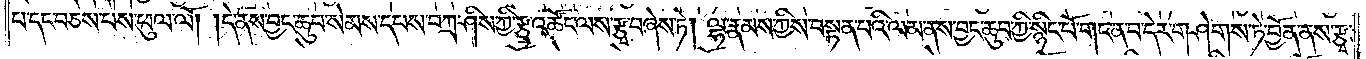པ་དང་བཅས་པས་ཕུལ་ལོ། །དེ་ནས་བྱང་ཆུབ་སེམས་དཔས་བཀྲ་ཤིས་ཀྱི་རྩྭ་འཚོང་ལས་རྩྭ་བཞེས་ཏེ། ལྷ་རྣམས་ཀྱིས་བསྟན་པའི་ལམ་ནས་བྱང་ཆུབ་ཀྱི་སྙིང་པོ་གང་ན་བ་དེར་གཤེགས་ཏེ་བྱོན་ནས་རྩྭ་
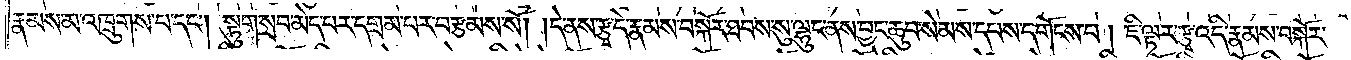རྣམས་མ་འཁྲུགས་པ་དང༌། སྟུག་སྲབ་མེད་པར་དགྲམ་པར་བརྩམས་སོ། །དེ་ནས་རྩྭ་དེ་རྣམས་བསྐོར་ཐབས་སུ་ལྷུང་ནས་བྱང་ཆུབ་སེམས་དཔས་དགོངས་པ། ཇི་ལྟར་རྩྭ་འདི་རྣམས་བསྐོར་
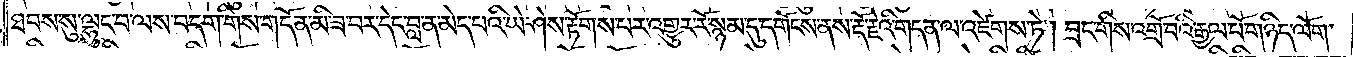ཐབས་སུ་ལྷུང་བ་ལས་བདག་གིས་གདོན་མི་ཟ་བར་དེང་བླ་ན་མེད་པའི་ཡེ་ཤེས་རྟོགས་པར་འགྱུར་རོ་སྙམ་དུ་དགོངས་ནས་རྡོ་རྗེའི་གདན་ལ་འཛེགས་ཏེ། བྲང་གིས་འགྲོ་བའི་རྒྱལ་པོ་གཉིད་ལོག་
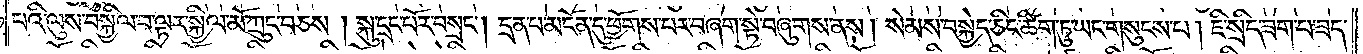པའི་ལུས་བསྐྱིལ་བ་ལྟར་སྐྱིལ་མོ་ཀྲུང་བཅས། སྐུ་དྲང་པོར་བསྲང༌། དྲན་པ་མངོན་དུ་ཕྱོགས་པར་བཞག་སྟེ་བཞུགས་ནས། སེམས་བསྐྱེད་ཅིང་ཚིག་ཏུ་ཡང་གསུངས་པ། ཇི་སྲིད་ཟག་པ་ཟད་
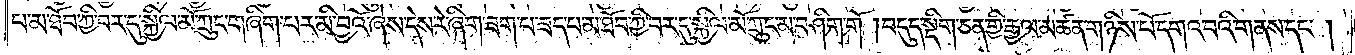པ་མ་ཐོབ་ཀྱི་བར་དུ་སྐྱིལ་མོ་ཀྲུང་གཞིག་པར་མི་བྱའོ་ཞེས་དེས་རེ་ཞིག་ཟག་པ་ཟད་པ་མ་ཐོབ་ཀྱི་བར་དུ་སྐྱིལ་མོ་ཀྲུང་མ་བཤིག་གོ །བདུད་སྡིག་ཅན་གྱི་རྒྱལ་མཚན་གཉིས་པོ་དགའ་བའི་གནས་དང༌།
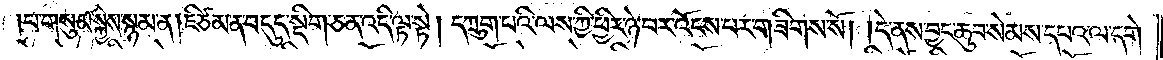།པ་གསུམ་སྐྱེས་སྙམ་ན། ཇི་ཙམ་ན་བདུད་སྡིག་ཅན་འདི་ལྟ་སྟེ། དཀྲུག་པའི་ལས་ཀྱི་ཕྱིར་ཉེ་བར་འོངས་པར་གཟིགས་སོ། །དེ་ནས་བྱང་ཆུབ་སེམས་དཔའ་ལ་དགེ་
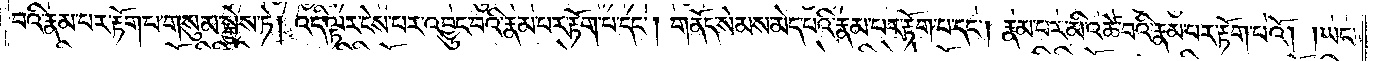བའི་རྣམ་པར་རྟོག་པ་གསུམ་སྐྱེས་ཏེ། འདི་ལྟར་ངེས་པར་འབྱུང་བའི་རྣམ་པར་རྟོག་པ་དང༌། གནོད་སེམས་མེད་པའི་རྣམ་པར་རྟོག་པ་དང༌། རྣམ་པར་མི་འཚེ་བའི་རྣམ་པར་རྟོག་པའོ། །ཡང་
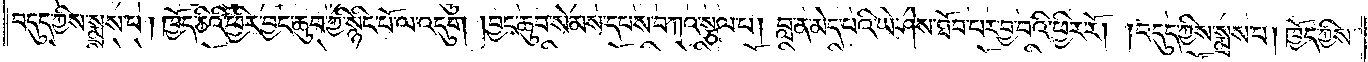བདུད་ཀྱིས་སྨྲས་པ། ཁྱོད་ཅིའི་ཕྱིར་བྱང་ཆུབ་ཀྱི་སྙིང་པོ་ལ་འདུག །བྱང་ཆུབ་སེམས་དཔས་བཀའ་སྩལ་པ། བླ་ན་མེད་པའི་ཡེ་ཤེས་ཐོབ་པར་བྱ་བའི་ཕྱིར་རོ། །བདུད་ཀྱིས་སྨྲས་པ། ཁྱོད་ཀྱིས་
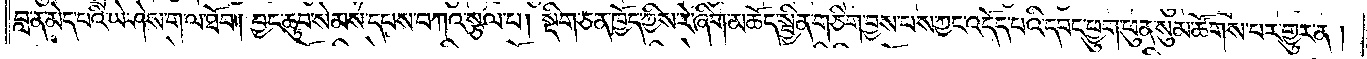བླ་ན་མེད་པའི་ཡེ་ཤེས་ག་ལ་ཐོབ། བྱང་ཆུབ་སེམས་དཔས་བཀའ་སྩལ་པ། སྡིག་ཅན་ཁྱོད་ཀྱིས་རེ་ཞིག་མཆོད་སྦྱིན་གཅིག་བྱས་པས་ཀྱང་འདོད་པའི་དབང་ཕྱུག་ཕུན་སུམ་ཚོགས་པར་གྱུར་ན་།
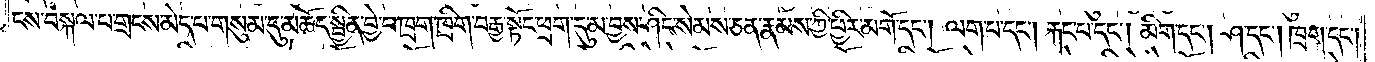ངས་བསྐལ་པ་གྲངས་མེད་པ་གསུམ་དུ་མཆོད་སྦྱིན་བྱེ་བ་ཁྲག་ཁྲིག་བརྒྱ་སྟོང་ཕྲག་དུ་མ་བྱས་ཤིང་སེམས་ཅན་རྣམས་ཀྱི་ཕྱིར་མགོ་དང༌། ལག་པ་དང༌། རྐང་པ་དང༌། མིག་དང༌། ཤ་དང༌། ཁྲག་དང༌།
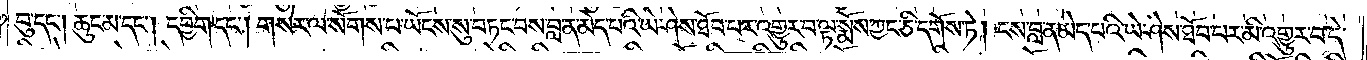བུ་དང༌། ཆུང་མ་དང༌། དབྱིག་དང༌། གསེར་ལ་སོགས་པ་ཡོངས་སུ་བཏང་བས་བླ་ན་མེད་པའི་ཡེ་ཤེས་ཐོབ་པར་འགྱུར་བ་ལྟ་སྨོས་ཀྱང་ཅི་དགོས་ཏེ། ངས་བླ་ན་མེད་པའི་ཡེ་ཤེས་ཐོབ་པར་མི་འགྱུར་བ་དེ་
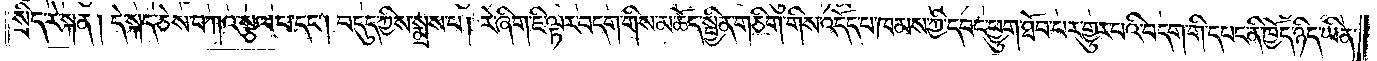སྲིད་རེ་སྐན། དེ་སྐད་ཅེས་བཀའ་སྩལ་པ་དང༌། བདུད་ཀྱིས་སྨྲས་པ། རེ་ཞིག་ཇི་ལྟར་བདག་གིས་མཆོད་སྦྱིན་གཅིག་གིས་འདོད་པ་ཁམས་ཀྱི་དབང་ཕྱུག་ཐོབ་པར་གྱུར་པའི་བདག་གི་དབང་ནི་ཁྱོད་ཉིད་ཡིན་
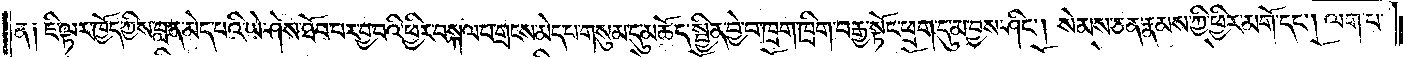ན༑ ཇི་ལྟར་ཁྱོད་ཀྱིས་བླ་ན་མེད་པའི་ཡེ་ཤེས་ཐོབ་པར་བྱ་བའི་ཕྱིར་བསྐལ་པ་གྲངས་མེད་པ་གསུམ་དུ་མཆོད་སྦྱིན་བྱེ་བ་ཁྲག་ཁྲིག་བརྒྱ་སྟོང་ཕྲག་དུ་མ་བྱས་ཤིང༌། སེམས་ཅན་རྣམས་ཀྱི་ཕྱིར་མགོ་དང༌། ལག་པ་
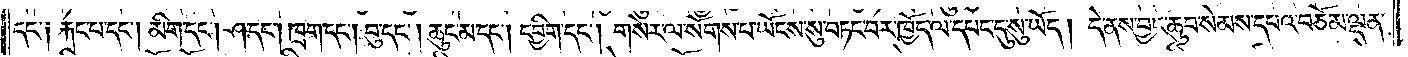དང་༑ རྐང་པ་དང༌། མིག་དང༌། ཤ་དང༌། ཁྲག་དང༌། བུ་དང༌། ཆུང་མ་དང༌། དབྱིག་དང༌། གསེར་ལ་སོགས་པ་ཡོངས་སུ་བཏང་བར་ཁྱོད་ལ་དཔང་དུ་སུ་ཡོད། དེ་ནས་བྱང་ཆུབ་སེམས་དཔའ་བཅོམ་ལྡན་
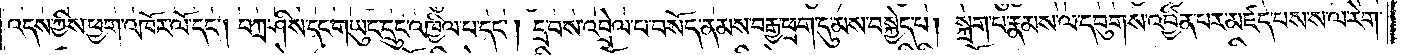འདས་ཀྱིས་ཕྱག་འཁོར་ལོ་དང༌། བཀྲ་ཤིས་དང་གཡུང་དྲུང་འཁྱིལ་པ་དང༌། དྲ་བས་འབྲེལ་པ་བསོད་ནམས་བརྒྱ་ཕྲག་དུ་མས་བསྐྱེད་པ། སྐྲག་པ་རྣམས་ལ་དབུགས་འབྱིན་པར་མཛད་པས་ས་ལ་རེག་
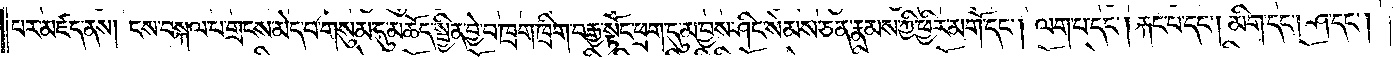པར་མཛད་ནས། ངས་བསྐལ་པ་གྲངས་མེད་པ་གསུམ་དུ་མཆོད་སྦྱིན་བྱེ་བ་ཁྲག་ཁྲིག་བརྒྱ་སྟོང་ཕྲག་དུ་མ་བྱས་ཤིང་སེམས་ཅན་རྣམས་ཀྱི་ཕྱིར་མགོ་དང༌། ལག་པ་དང༌། རྐང་པ་དང༌། མིག་དང༌། ཤ་དང༌།
